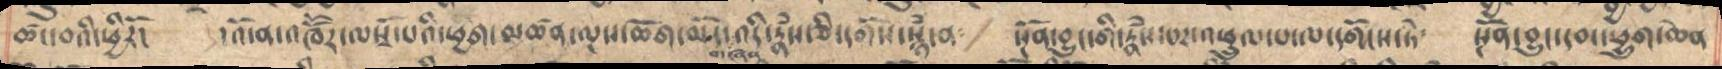ཚང་བའི་ཕྱིར།   ་འོ་ན་འཁོོར་ལསྭོ་པའི་ཕྱག་མཚན་ལྔས་ཆོག་མོ་དང་གཞན་འདི་རྣཾས་ཅི་དགོས་སྙཾ་ན༴  སྔོན་བྱུང་དགི་རྣཾས་པར་འཕྱུལ་པ་ལ་དགོངས་ཏེ༴  སྔོན་བྱུང་དབང་ཕྱུག་ཆེན
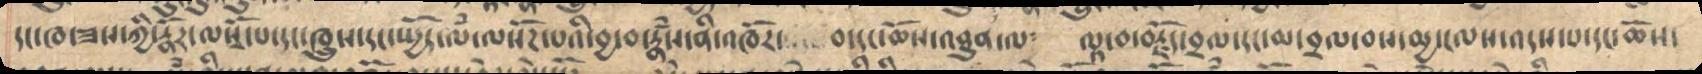དང་ཁ་ཟས་ཀྱི་རྣོར་ལསྭོ་པ་དང་ཁྲུས་དང་སྤྱོད་ལཾ་ལསོཌ་པའི་བྱ་བ་རྣཾས་ནི་འཁོར་ བ་དང་ཆོས་འཐུན་ལ༴ ལྟ་བ་བརྗོད་བྲལ་དང་མ་བྲལ་བས་མྱ་ངལས་འདས་པ་དང་ཆོས་
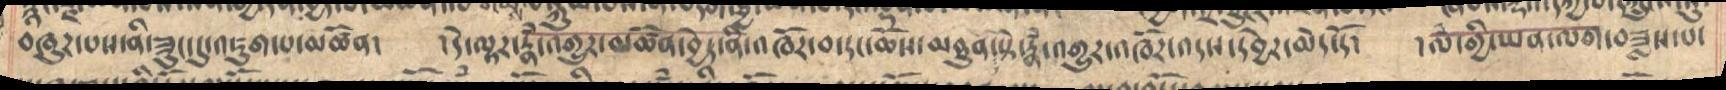བཞུཌ་པས་ནི་ཟུང་དུ་འཇུག་པ་མཚོན།  །དེ་ལྟར་རྣཾ་འགྱུར་མཚོན་བྱེད་ནི་འཁོར་བ་དང་ཆོས་མཐུན་སྟེ་རྣཾ་འགྱུར་འཁོར་འདས་དབྱེར་མེད་ངོར།   །ལཾ་གྱི་ཡན་ལག་བཟླས་པ་
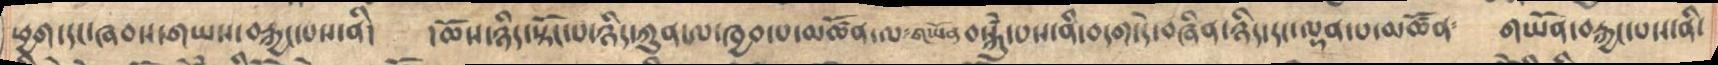ཕྱག་དང་ཞབས་གཡས་བརྐྱང་པས་ནི། །ཆོས་ཉིད་སྟོང་པ་ཉིད་ཀུན་ལ་ཁྱབ་པ་མཚོན་ལ༴གཡོན་བསྐུཾ་པས་ནི་བདག་དེ་བཞིན་ཉིད་དང་ལྡན་པ་མཚོན༴ གཡོན་བརྐྱང་པས་ནི་
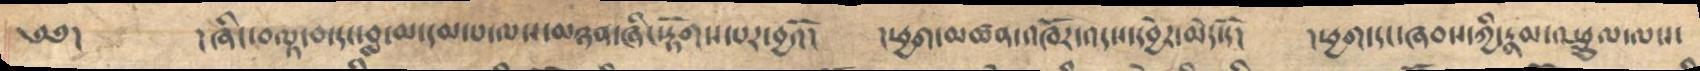༄༅། །ཞིང་བལྟ་བ་དང་བླ་མ་དམ་པ་ལས་མཉན་ཞིང་རྟོགས་པར་བྱའོ། །ཕྱག་མཚན་འཁོར་འདས་དབྱེར་མེད་དོ། །ཕྱག་དང་ཞབས་ཀྱི་རྣམ་འཕྲུལ་ལས་
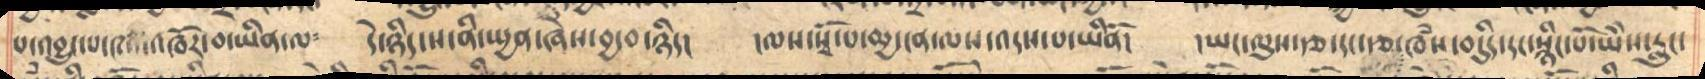པ་འབྱུང་པ་༩འི་འཁོར་བ་ཡིན་ལ༴   དེ་ཉིད་ས་ནི་སྤྱན་ཞེས་བྱ་བ་ཉིད།  །ལས་སྭོ་པ་མྱ་ངན་ལས་འདས་པ་ཡིནོ།   །ཡང་ལུས་རྩ་དང་རྩ་ཁཾས་བདུདི་དང་སྙིང་པོ་ཡེེས་རླུང་
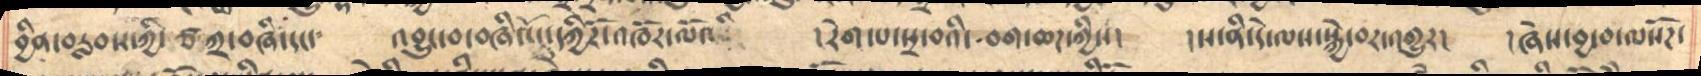བྱིན་བརླབས་ཀྱཙཀྲ་བཞི་དང་༴  ་འབྱུང་བ་བཞི་དངོ་དཀྱིོར་འཁོར་ལོའི་  །རེག་པ་སྲ་བའི་བག་ཆཌ་ཀྱིས།  །ས་ནི་དེ་ལས་སྐྱེ་བར་འགྱུར།  །ཞེས་བྱ་བ་ལསོཌ་
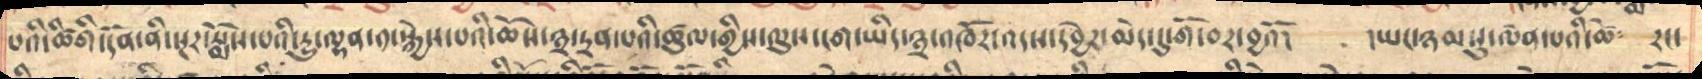པའི་ཚིགི་དོན་ནི་སྔར་སྨོས་པའི་རྱུ་ལྷན་༡་སྐྱེས་པའི་ཆོས་༣་ཏྲན་པའི་ཚུལ་གྱིས་ལུས་ངག་ཡིད་༣་འཁོར་འདས་དབྱེར་མེད་དུ་གོ་བར་བྱའོ།  །ཡང་ཉམསུ་ལེན་པའི་ཆེ༴ ་དང་
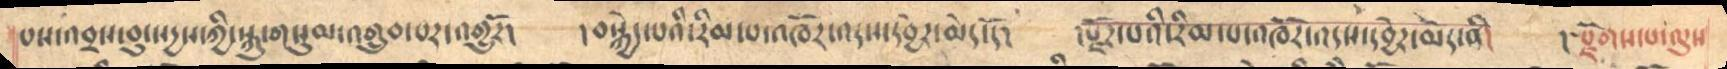པས་འབྲས་བུ་སདྱས་ཀྱི་སྐུ་གསུམ་འགྲུབ་པར་འགྱུརོ།  །བསྐྱེད་པའི་རིམ་པ་འཁོར་འདས་དབྱེར་མེད་དོ།  །རྫོཌ་པའི་རིམ་པ་འཁོར་འདས་དབྱེར་མེད་ནི།  །སྫོགས་པ་ལུས
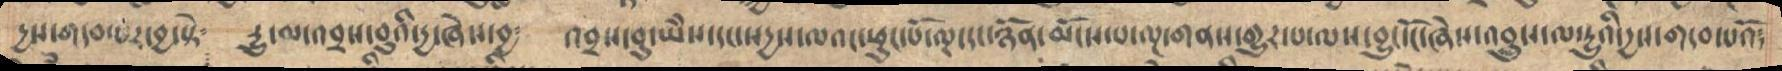དྱས་གདབ་པར་བྱ་སྟེ༴  རྱུ་ལ་འབྲས་བུའི་དྱ་ཞེས་བྱ༴  འབྲས་བུ་ཡེེས་དང་སདྱས་ལའང་ཕུང་པོ་ལྔ་དངཉོན་མོངས་པ་ལྔ་གནས་འགྱུར་པ་ལས་བྱུང་ངོ་ཞེས་འབྲུས་ལ་རྱུའི་དྱས་གདབ་པའོ།
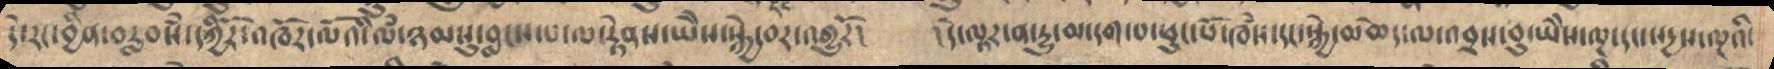དེ་དང་བྱིན་བརླབསཾ་དཀྱིོར་འཁོར་ལོའིལཾ་ཉམསུ་བླངས་པ་ལ་རྟེནས་ཡེེས་སྐྱེ་བར་འགྱུརོ།  །དེ་ལྟར་ན་རྱུ་མ་དག་པ་ཕུང་པོ་ཁཾས་དང་སྐྱེ་མཆེད་ལ་འབྲས་བུ་ཡེེས་ལྔ་དངསདྱས་ལྔའི་
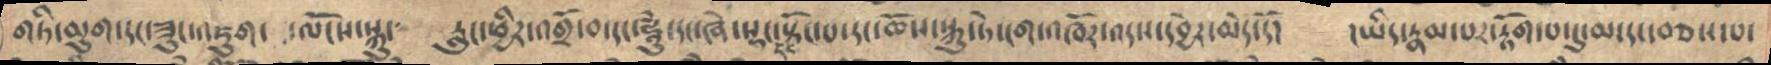གཏི་མུག་དང་ཟུང་འཇུག་  ་ལོངས་སྐུ་  རླུང་ཕྱིར་འགྲོ་བ་དང་ཧཱུཾ་དང་ཞེ་སྡང་དང་སྟོང་པ་དང་ཆོས་སྐུ་ཏེ་ངག་འཁོར་འདས་དབྱེར་མེད་དོ།  །ཡིད་རྣམ་པར་རྟོག་པ་དུ་མ་དང་བཅས་པ་
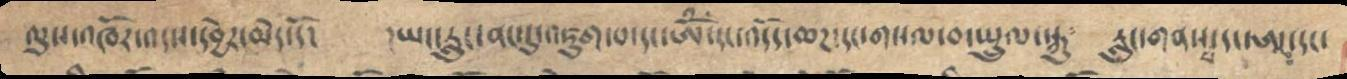ལུས་འཁོར་འདས་དབྱེར་མེད་དོ།  །ཡང་རླུང་ནང་དུ་འཇུག་པ་དང་ཨོཾ་དང་འདོད་ཆཌ་དང་གསལ་བ་སྤྲུལ་སྐུ༴  རླུང་གནས་པ་དང་ཨ་དང་
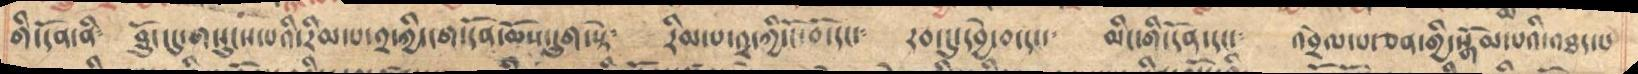གི་དོན་ནི༴  ཐོུང་དུ་གསུངས་པའི་རིམ་པ་༢་ཀྱི་དག་དོན་ཆོས་དྲུག་སྟེ༴  རིམ་པ་༢་ཀྱི་ངོ་བོ་དང་༴  རབ་དུ་དབྱེ་བ་དང་༴  མིང་གི་དོན་དང་༴  འབྲེལ་པ་ཅན་གྱི་སྒོམ་པའི་འཐད་པ
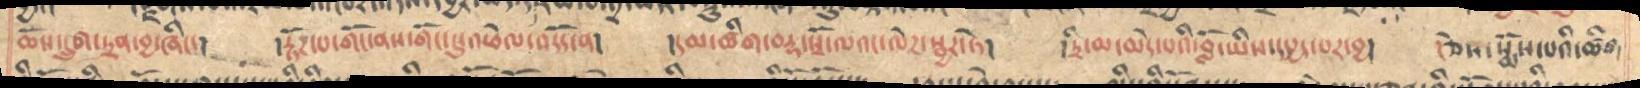ཆོས་དྲུག་དྲན་བྱ་ཞིང་།  །རྟོཌ་པ་གོང་ནས་གོང་དུ་འཕེལ་འདོད་ན།  །དམ་ཚིག་བརྡ་སྭོ་ལའང་ལེཌ་སྦྱར་ཏེ།  །དྲི་མ་མེད་པའི་བློ་ཡིས་དཔྱད་པར་བྱ།  །ཅེས་སྨོས་པའི་ཚིག
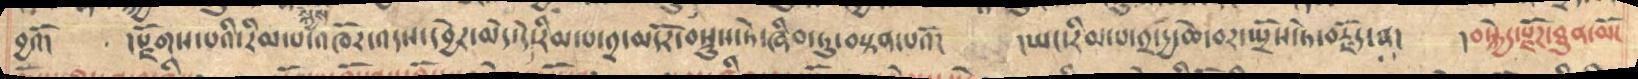བྱའོ།   །རྫོགས་པའི་རིམ་སྐྱེས་པ་འཁོར་འདས་དབྱེར་མེད་དེ་རིམ་པ་༢་མདོར་བསྡུས་ཏེ་ཞིབ་ཏུ་བསྟན་པའོ།  །ཡང་རིམ་པ་༢་དྱ་ཆེ་བར་སྤྲོས་ཏེ་བརྗོད་ན།   །བསྐྱེད་རྫོཌ་ཐུན་མོང
